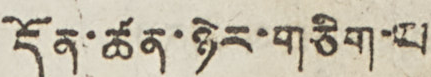དོན་ཚན་ཉེར་གཅིག་པ།
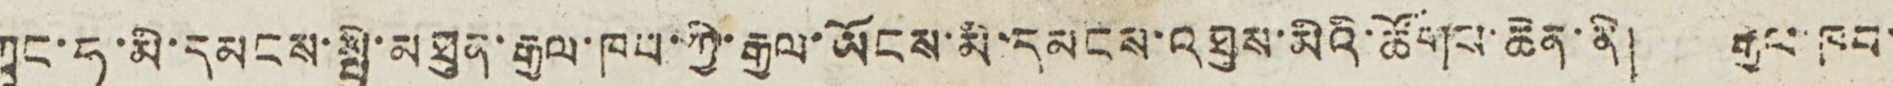ཀྲུང་ཧྭ་མི་དམངས་སྤྱི་མཐུན་རྒྱལ་ཁབ་ཀྱི་རྒྱལ་ཡོངས་མི་དམངས་འཐུས་མིའི་ཚོགས་ཆེན་ནི། རྒྱལ་ཁབ་
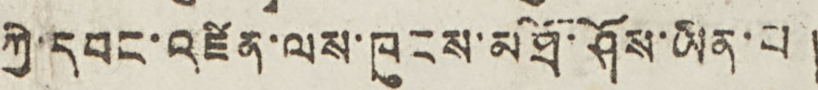ཀྱི་དབང་འཛིན་ལས་ཁུངས་མཐོ་ཤོས་ཡིན་པ།
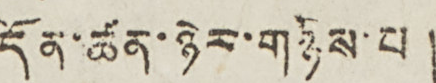དོན་ཚན་ཉེར་གཉིས་པ།
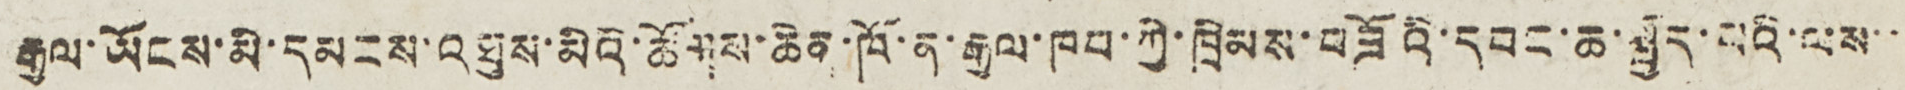རྒྱལ་ཡོངས་མི་དམངས་འཐུས་མིའི་ཚོགས་ཆེན་ཁོ་ན་རྒྱལ་ཁབ་ཀྱི་ཁྲིམས་བཟོའི་དབང་ཆ་སྤྱོད་པའི་ལས་་་
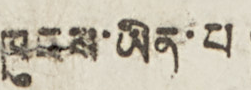ཁུངས་ཡིན་པ།
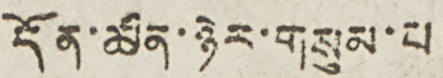དོན་ཚན་ཉེར་གསུམ་པ།
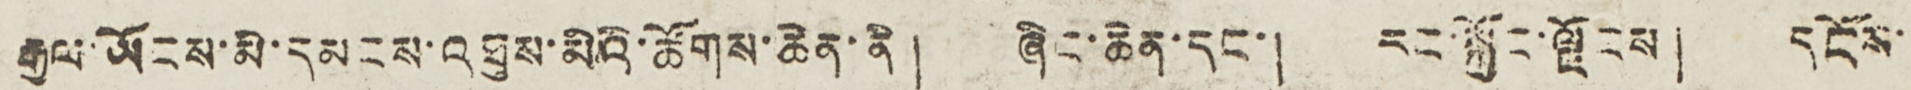རྒྱལ་ཡོངས་མི་དམངས་འཐུས་མིའི་ཚོགས་ཆེན་ནི། ཞིང་ཆེན་དང་། རང་སྐྱོང་ལྗོངས། དངོས་་
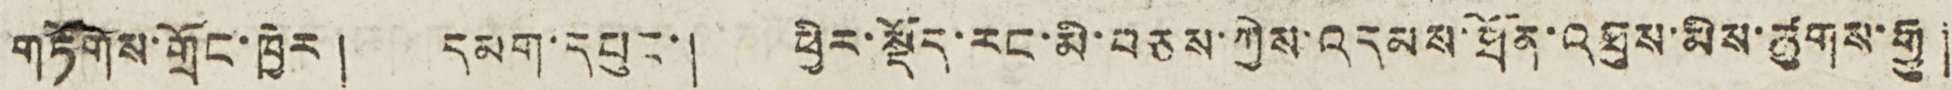གཏོགས་གྲོང་ཁྱེར། དམག་དཔུང་། ཕྱི་སྡོད་རང་མི་བཅས་ཀྱིས་འདམས་ཐོན་འཐུས་མིས་ཚུགས་རྒྱུ།
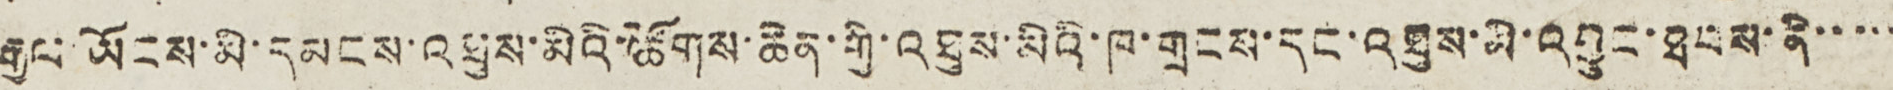རྒྱལ་ཡོངས་མི་དམངས་འཐུས་མིའི་ཚོགས་ཆེན་གྱི་འཐུས་མིའི་ཁ་གྲངས་དང་འཐུས་མི་འབྱུང་ཐབས་ནི་་་་་
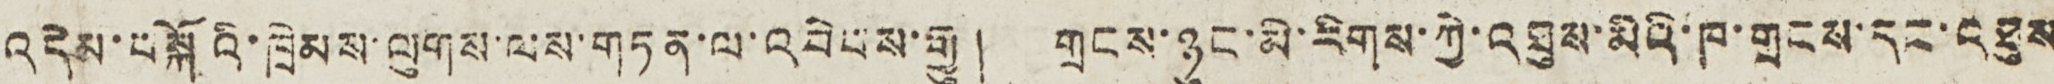འདེམ་བསྐོའི་ཁྲིམས་ལུགས་ལས་གཏན་ལ་འབེབས་རྒྱུ། གྲངས་ཉུང་མི་རིགས་ཀྱི་འཐུས་མིའི་ཁ་གྲངས་དང་འཐུས་
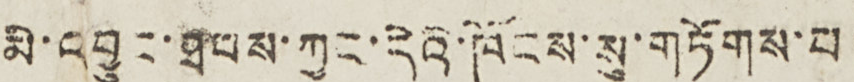མི་འབྱུང་ཐབས་ཀྱང་དེའི་ཁོངས་སུ་གཏོགས་པ།
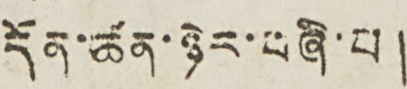དོན་ཚན་ཉེར་བཞི་པ།
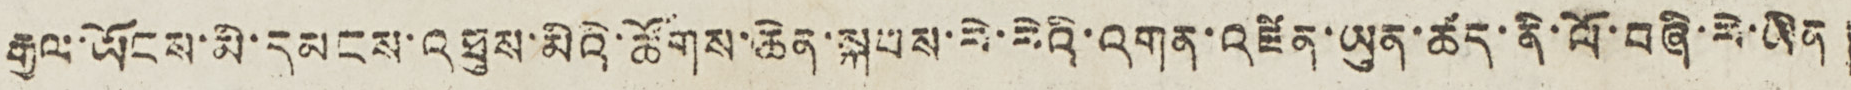རྒྱལ་ཡོངས་མི་དམངས་འཐུས་མིའི་ཚོགས་ཆེན་སྐབས་རེ་རེའི་འགན་འཛིན་ཡུན་ཚད་ནི་ལོ་བཞི་རེ་ཡིན།
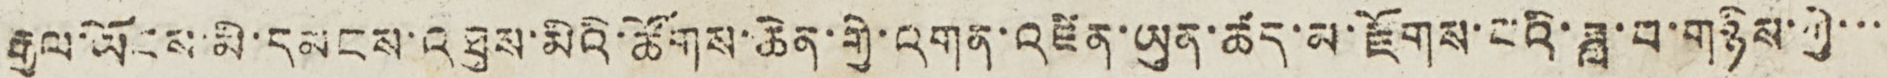རྒྱལ་ཡོངས་མི་དམངས་འཐུས་མིའི་ཚོགས་ཆེན་གྱི་འགན་འཛིན་ཡུན་ཚད་མ་རྫོགས་པའི་ཟླ་བ་གཉིས་ཀྱི་་་་
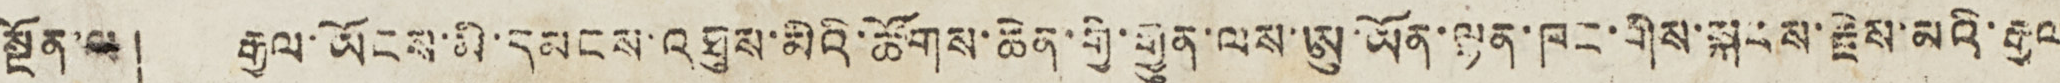སྔོན་ལ། རྒྱལ་ཡོངས་མི་དམངས་འཐུས་མིའི་ཚོགས་ཆེན་གྱི་རྒྱུན་ལས་ཨུ་ཡོན་ལྷན་ཁང་གིས་སྐབས་རྗེས་མའི་རྒྱལ་
